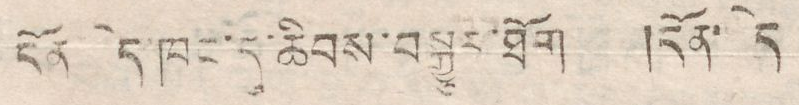དོན་ ད་ཁང་དུ་ཆིབས་བསྒྱུར་ཐོག །དོན་ ད་
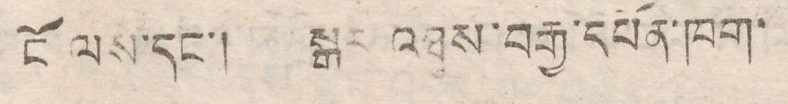ངོ ལས་དང་། སྒར་བཐུས་བརྒྱ་དཔོན་ཁག་
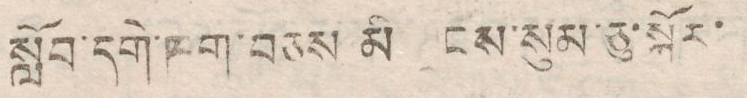སློབ་དགེ་ཁག་བཅས མི ངས་སུམ་ཅུ་སྐོར་
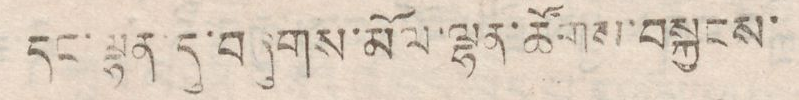དང་ལྷན་དུ་བཞུགས་མོལ་ལྷན་ཚོགས་བསྐྱངས་
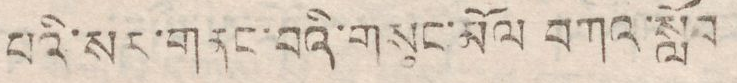པའི་སར་གནང་བའི་གསུང་མོལ བཀའ་སློབ
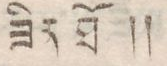ཟིན ཐོ །།
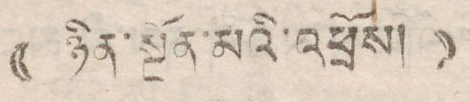(( ཉིན་སྔོན་མའི་འཕྲོས། ))
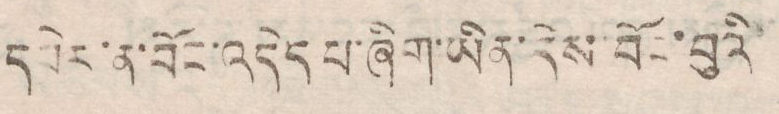དཔེར་ན་བོང་འདེད་པ་ཞིག་ཡིན་དེས་བོང་བུའི་
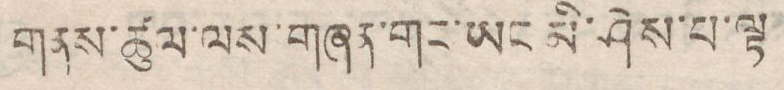གནས་ཚུལ་ལས་གཞན་གང་ཡང མི་ཤེས་པ་ལྟ
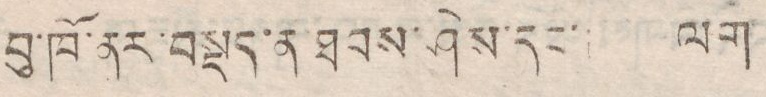བུ་ཁོ་ནར་བསྡད་ན ཐབས་ཤེས་དང་ ལག་
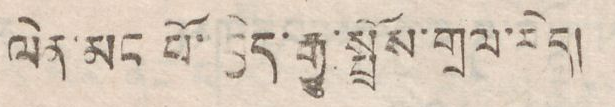ལེན་མང པོ་བྱེད་རྒྱུ་སྤྲོད་གྲལ་རེད།
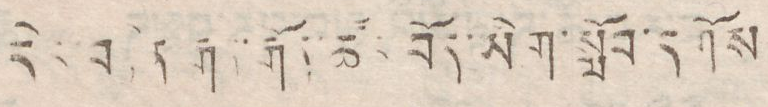དེར བརྟེན་རྒན་རྒོན་ཚོར་བོད་ཡིག་སློབ་དགོས
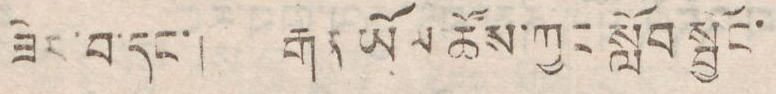ཟེར་བ་དང་། རྒན ཡོལ ཚོས་ཀྱང སློབ་སྦྱོང་
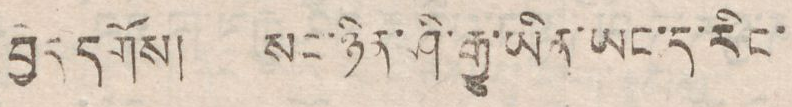བྱེད་དགོས། སང་ཉིན་ཤི་རྒྱུ་ཡིན་ཡང་ད་རིང་
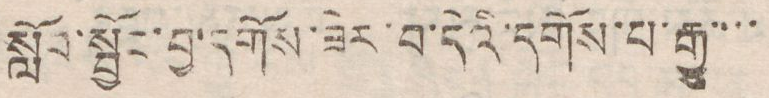སློབ་སྦྱོང་བྱ་དགོས་ཟེར་བ་དེའི་དགོས་པ་རྒྱུ་་་་་
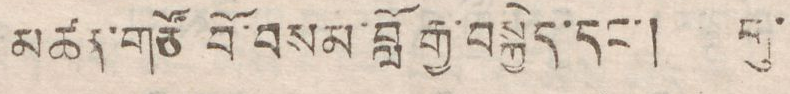མཚན་གཙོ་བོ་བསམ་བློ་རྒྱ་བསྐྱེད་དང་། གུ་
